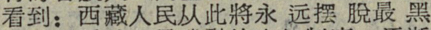看到：西藏人民从此将永远摆脫最黑
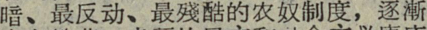暗、最反动、最殘酷的农奴制度，逐漸
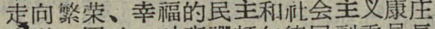走向繁荣、幸福的民主和社会主义康庄
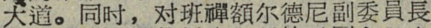大道。同时，对班禪額尔德尼副委員長
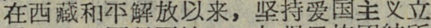在西藏和平解放以来，坚持受国主义立
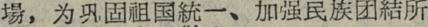場，为現固祖国統一、加强民族团結所
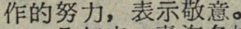作的努力，表示敬意。
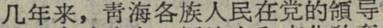几年来，靑海各族人民在党的領导
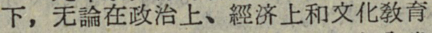下，无論在政治上、經济上和文化敎育
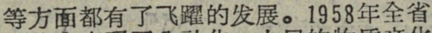等方面都有了飞躍的发展。1958年全省
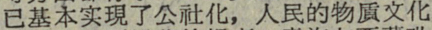已基本实現了公社化，人民的物貭文化
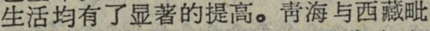生活均有了显著的提高。靑海与西藏毗
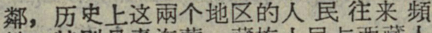鄰，历史上这兩个地区的人民往来頻
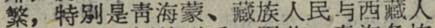繁，特別是靑海蒙、藏族人民与西藏人
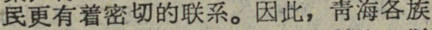民更有着密切的联系。因此，靑海各族
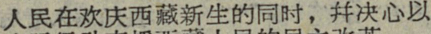人民在欢庆西藏新生的同时，并决心以
